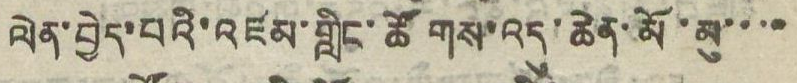ལེན་བྱེད་པའི་འཛམ་གླིང་ཚོགས་འདུ་ཆེན་མོ་མུ་་་་
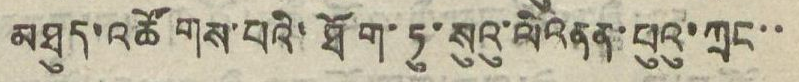མཐུད་འཚོགས་པའི་ཐོག་ཏུ་སུའུ་ལིའནན་པུའུ་ཀྲང་་
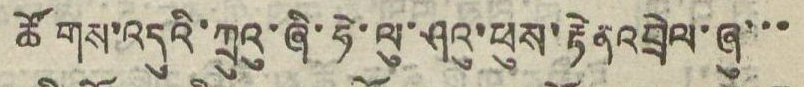ཚོགས་འདུའི་ཀྲུའུ་ཞི་ཧེ་ལུ་ཤའུ་ཕུས་རྟེན་འབྲེལ་ཞུ་་་
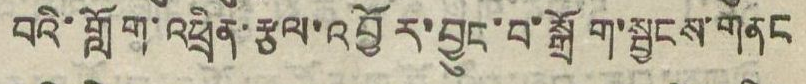བའི་གློག་འཕྲིན་རྩལ་འབྱོར་བྱུང་བ་སྒྲོག་སྦྱངས་གནང
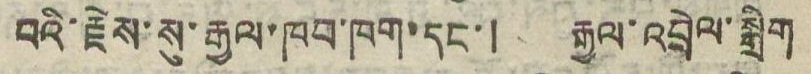བའི་རྗེས་སུ་རྒྱལ་ཁབ་ཁག་དང་། རྒྱལ་འབྲེལ་སྒྲིག
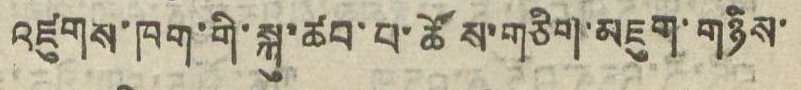འཛུགས་ཁག་གི་སྐུ་ཚབ་པ་ཚོས་གཅིག་མཇུག་གཉིས་
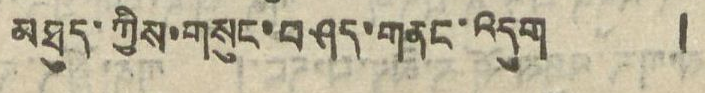མཐུད་ཀྱིས་གསུང་བཤད་གནང་འདུག
